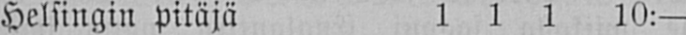Helsingin pitäjä 1 1 1 10:— — —
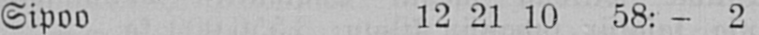Sipoo 12 21 10 58: — 2 —
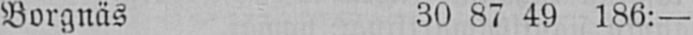Borgnäs 30 87 49 186:— — —
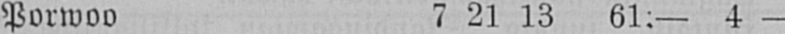Porwoo 7 21 13 61:— 4 —
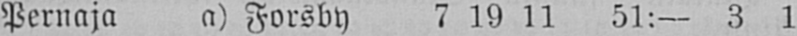Pernaja a) Forsby 7 19 11 51:— 3 1
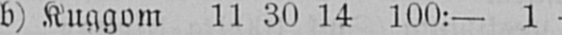b) Kuggom 11 30 14 100:— 1 —
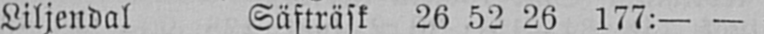Liljendal Säfträsk 26 52 26 177:— —
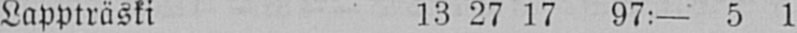Lappträski 13 27 17 97:— 5 1
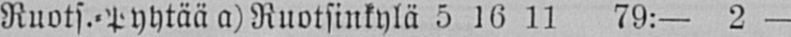Ruots.-Pyhtää a)Ruotsinkylä 5 16 11 79:— 2 —
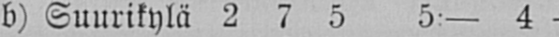b) Suurikylä 2 7 5 5:— 4 —
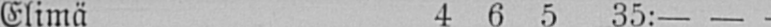Elimä 4 6 5 35:— — —
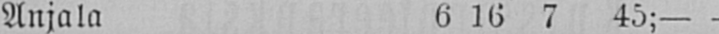Anjala 6 16 7 45;— — —
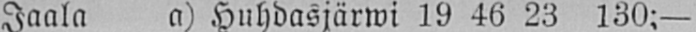Jaala a) Huhdasjärwi 19 46 23 130;— — —
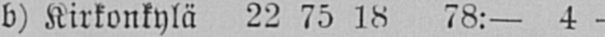b) Kirkonkylä 22 75 18 78:— 4 —
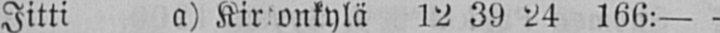Iitti a) Kirkonkylä 12 39 24 166:— — —
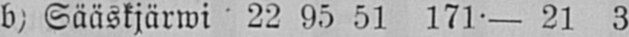b) Sääskjärwi 22 95 51 171:— 21 3
